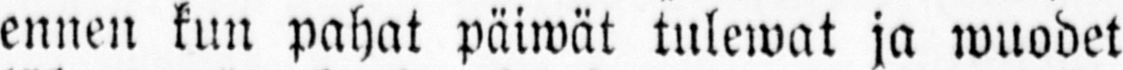ennen kun pahat päiwät tulewat ja wuodet
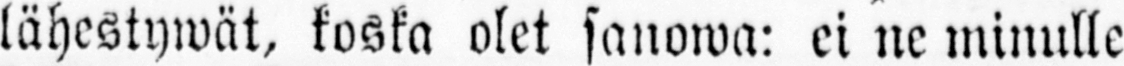lähestywät, koska olet sanowa: ei ne minulle
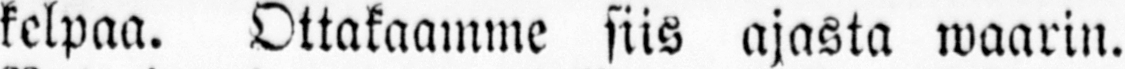kelpaa. Ottakaamme siis ajasta waarin.
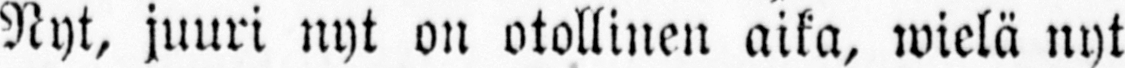Nyt, juuri nyt on otollinen aika, wielä nyt
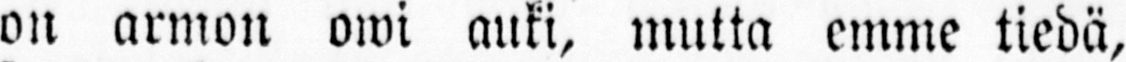on armon owi auki, mutta emme tiedä,
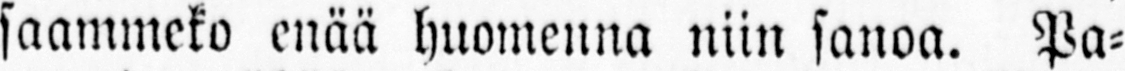saammeko enää huomenna niin sanoa. Pa-
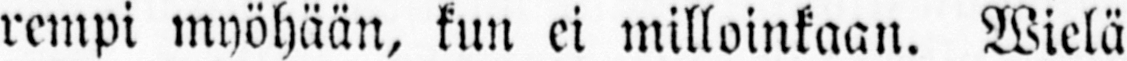rempi myöhään, kun ei milloinkaan. Wielä
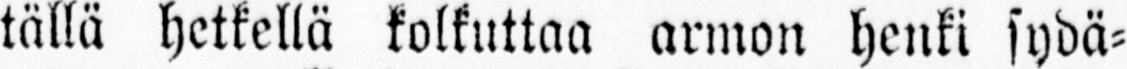tällä hetkellä kolkuttaa armon henki sydä-
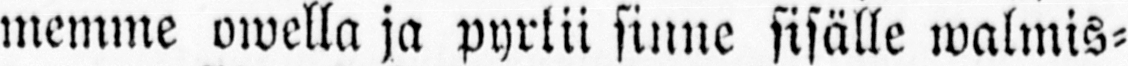memme owella ja pyrtii sinne sisälle walmis-
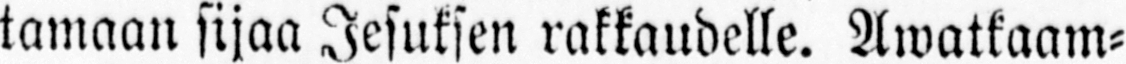tamaan sijaa Jesuksen rakkaudelle. Awatkaam-
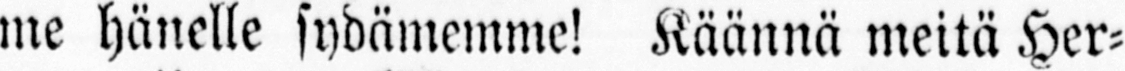me hänelle sydämemme! Käännä meitä Her-
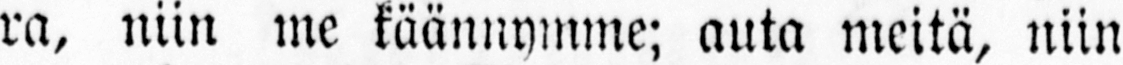ra, niin me käännymme; auta meitä, niin
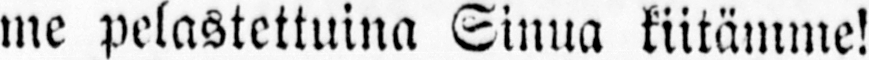me pelastettuina Sinua kiitämme!
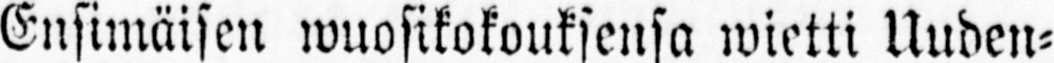Ensimäisen wuosikokouksensa wietti Uuden-
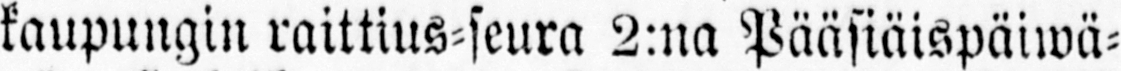kaupungin raittius-seura 2:na Pääsiäispäiwä-
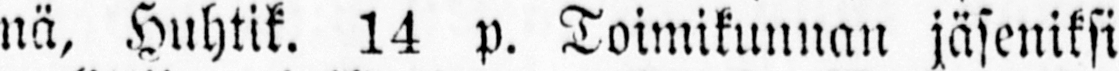nä, Huhtik. 14 p. Toimikunnan jäseniksi
